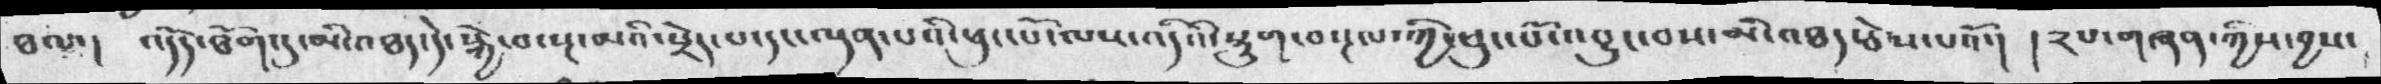ཐལ་། འདོད་ཐོག་དུ་མི་འཐད་དེ་སྐྱེ་བ་སྔ་མའི་སྲེད་པ་དང་ལྡན་པའི་ཕུང་པོ་ལས་འདིའི་སྡུག་བསྔལ་ཀྱི་ཕུང་པོ་འབྱུང་བས་མི་འཐད་ཅེས་པའོ་།  །༢པ་གཞཉ་ཀྱིས་བྱས་
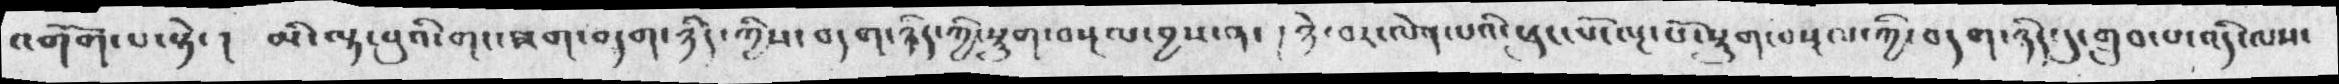འགོག་པ་སྟེ་།  མི་ལྟ་བུའི་གང་ཟག་བདག་ཉིད་ཀྱིས་བདག་ཉིད་ཀྱི་སྡུག་བསྔལ་བྱས་ན་།  ཉེ་བར་ལེན་པའི་ཕུང་པོ་སྡུག་བསྔལ་ཀྱི་བདག་ཉིད་དུ་གྲུབ་པ་འདི་ལས་
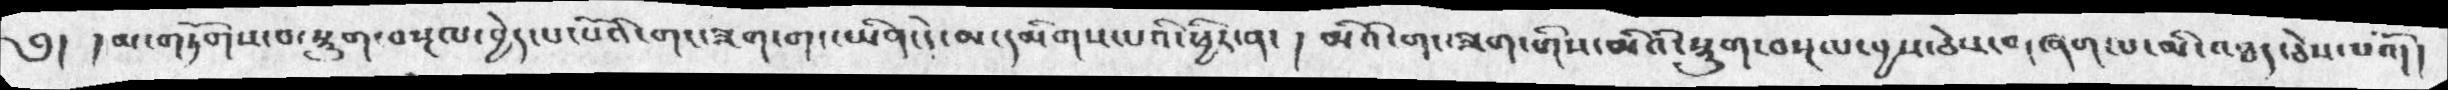༄།  །མ་གཏོགས་བ་སྡུག་བསྔལ་བྱེད་པ་པོའི་གང་ཟག་གང་ཡིན་དེ་མ་དམིགས་པའི་ཕྱིར་ན་ ། མིའི་གང་ཟག་གིས་མེའི་སྡུག་བསྔལ་བྱས་ཅེས་གཞག་པ་མི་འཐད་ཅེས་པའོ།།
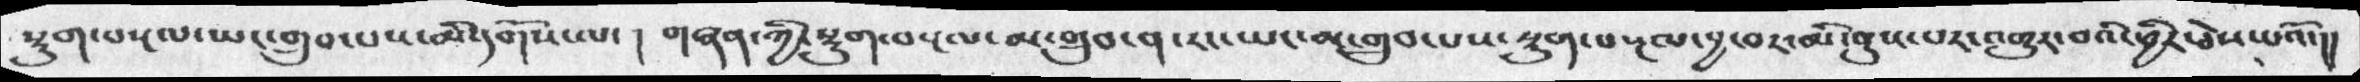སྡུག་བསྔལ་ཡང་གྲུབ་པས་མི་དགོས་ལ་ །  གཞན་ཀྱི་སྡུག་བསྔལ་མ་གྲུབ་ན་རང་ཡང་མ་གྲུབ་པས་སྡུག་བསྔལ་བྱ་བར་མི་ནུས་པར་འགྱུར་བའི་ཕྱིར་ཅེས་པའོ་།།
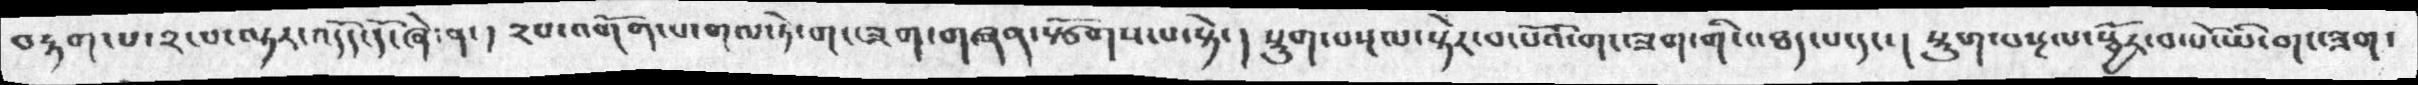བརྟག་པ་༢་པ་ལྟར་འདོད་དོ་ཞེ་ན་། ༢པ་འགོག་པ་གལ་ཏེ་གང་ཟག་གཞན་སྩོགས་པ་སྟེ་།  སྡུག་བསྔལ་སྟེར་བ་པོའི་གང་ཟག་གི་འཐད་པ་དང་། སྡུག་བསྔལ་སྦྱོར་བ་པོ་ཡི་གང་ཟག་
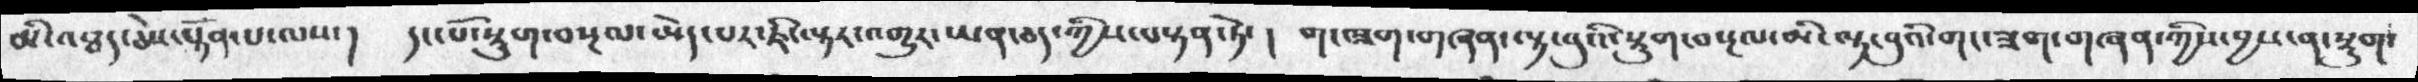མི་འཐད་ཅེས་སྟོནཔ་ལས་།  དང་པོ་སྡུག་བསྔལ་མེད་པར་ཇི་ལྟར་འགྱུར་ཡན་ཅད་ཀྱིས་བསྟན་ཏེ་།  གང་ཟག་གཞན་ལྟ་བུའི་སྡུག་བསྔལ་མི་ལྟ་བུའི་གང་ཟག་གཞན་ཀྱིས་བྱས་ན་སྡུག་
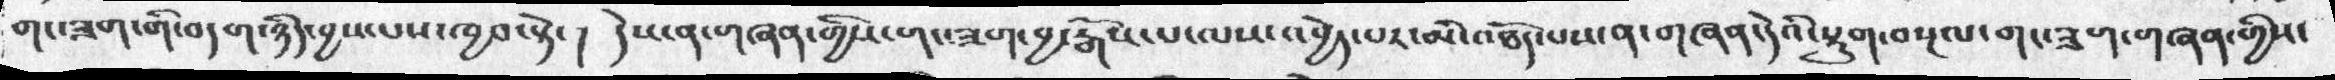གང་ཟག་གི་བདག་ཉིད་བྱས་པས་ཁྱབ་སྟེ་།  དེས་ན་གཞན་གྱིས་གང་ཟག་བྱ་རྒོས་པ་ལས་འབྱེད་པར་མི་འཐོད་པས་ན་གཞན་དེའི་སྡུག་བསྔལ་གང་ཟག་གཞན་གྱིས
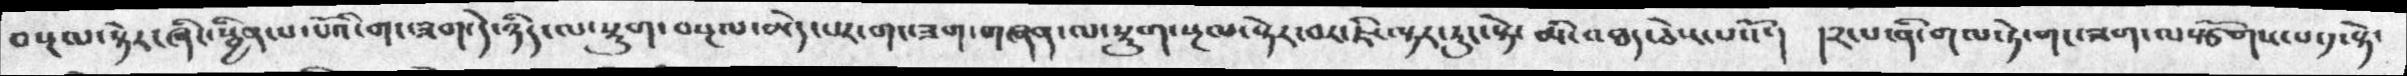བསྔལ་སྟེར་ཞིང་སྦྱིན་པ་པོའི་གང་ཟག་དེ་ཉིད་ལ་སྡུག་བསྔལ་མེད་པར་གང་ཟག་གཞན་ལ་སྡུག་བསྔལ་སྟེར་བར་ཇི་ལྟར་རུང་སྟེ་ མི་འཐད་ཅེས་པའོ་།  །༢་པ་ནི་གལ་ཏེ་གང་ཟག་ལསྩོགས་པ་༡་སྟེ་
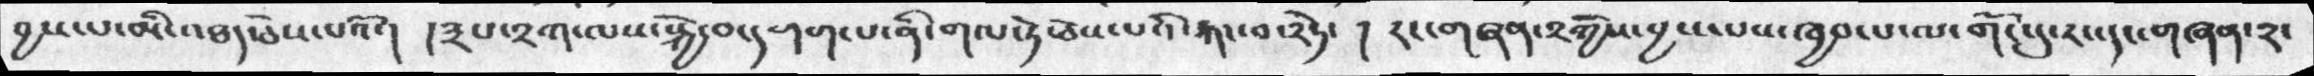བྱས་པ་མི་འཐད་ཅེས་པའོ་།  །༣པ་༢ག་ལས་སྐྱེ་བ་དགག་པ་ནི་གལ་ཏེ་ཅེས་པའི་རྐང་བ་༢ཏེ་   ། རང་གཞན་༢ཀྱིས་བྱས་པས་ཁྱབ་པ་ལ་གོང་དུ་རང་དང་གཞན་༢་
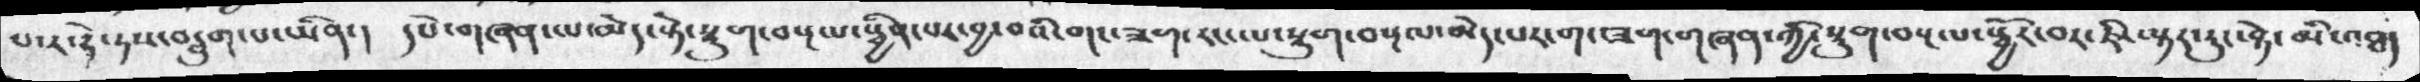པ་ར་བྷེ་ཏས་བརླུག་པ་ཡིན་།  དཔེ་གཞན་པ་མེད་སྟེ་སྡུག་བསྔལ་སྦྱིན་པར་བྱ་བའི་གང་ཟག་རང་ལ་སྡུག་བསྔལ་མེད་པར་གང་ཟག་གཞན་ཀྱི་སྡུག་བསྔལ་སྦྱོར་བར་ཇི་ལྟར་རུང་སྟེ་མི་འཐད
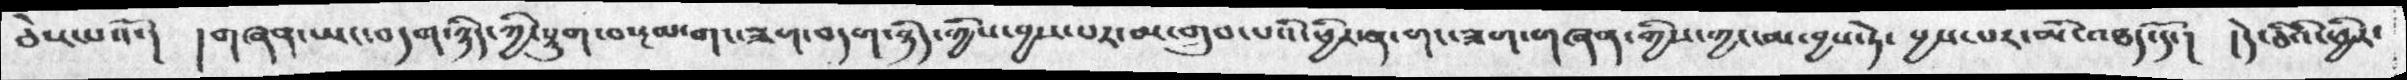ཅེས་པའོ་།  ། གཞན་ཡང་བདག་ཉིད་ཀྱི་སྡུག་བསྔལ་གང་ཟག་བདག་ཉིད་ཀྱིས་བྱས་པར་མ་གྲུབ་པའི་ཕྱིར་ན་གང་ཟག་གཞན་ཀྱིས་ཀྱང་མ་བྱས་ཏེ་  བྱས་པར་མི་འཐད་དོ་།  །དེ་ཅིའི་ཕྱིར་
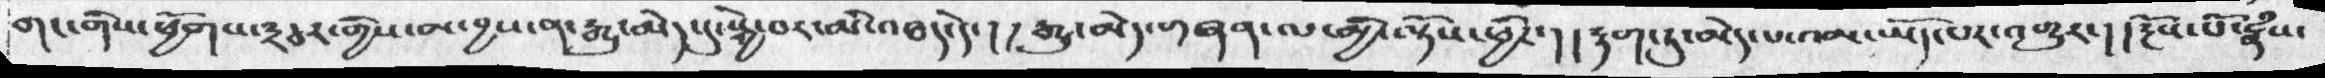གང་གིས་ཕྱོགས་༣ཅར་གྱིས་མ་བྱས་ན་རྒྱུ་མེད་དུ་སྐྱེ་བར་མི་འཐད་དེ་། ། རྒྱུ་མེད་གཞན་ལ་མྱི་ལྟོས་ཕྱིར་།། རྟག་ཏུ་མེད་པ་འམ་ཡོད་པར་འགྱུར་།། རྔོས་པོ་རྣཾས་
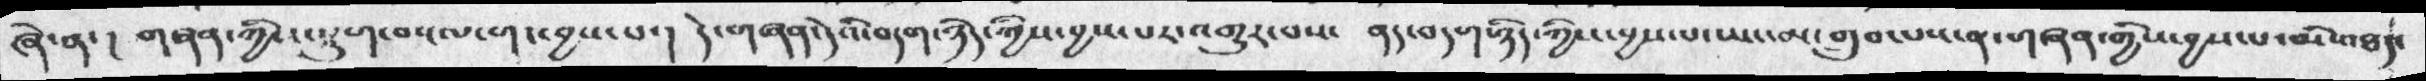ཞེ་ན་།  གཞན་ཀྱི་སྡུག་བསྔལ་གང་བྱས་པ་།  དེ་གཞན་དེའི་བདག་ཉིད་ཀྱིས་བྱས་པར་འགྱུར་བས་  ནད་བདག་ཉིད་ཀྱིས་བྱས་པ་ཡང་མ་གྲུབ་པས་ན་གཞན་གྱིས་བྱས་པ་མི་འཐད་
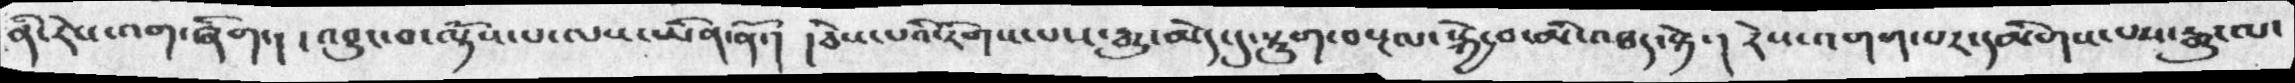ནི་རེས་འག་ཞིག་། ། འབྱུང་བ་ལྟོས་པ་ལས་ཡིན་ནོ་།  །ཅེས་པའི་རིགས་པས་རྒྱུ་མེད་དུ་སྡུག་བསྔལ་སྐྱེ་བ་མི་འཐད་སྟེ་།  རེས་འགག་པར་དམིགས་པས་རྒྱུ་ལ་
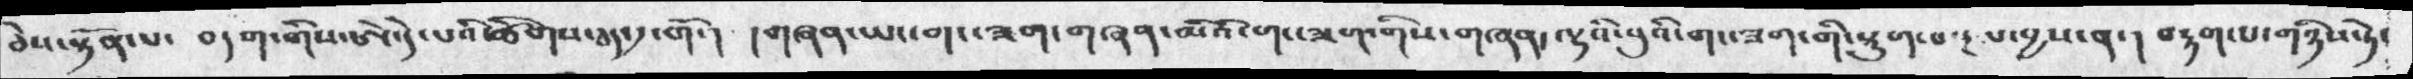ཅེས་སྟོན་པ་  བདག་གིས་ཨེ་དེ་པའི་ཚིགས་ཅད་དུ་གོ་།  །གཞན་ཡང་གང་ཟག་གཞན་མིའི་གང་ཟག་གིས་གཞན་ལྷའི་བུའི་གང་ཟག་གི་སྡུག་བསྔལ་བྱས་ན་།  བརྟག་པ་གཉིས་ཏེ་
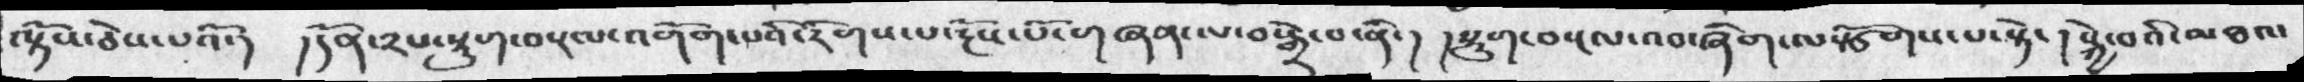ལྟོས་ཅེས་པའོ་།  །དོན༢ས་སྡུག་བསྔལ་འགོག་པའི་རིགས་པ་རྔོས་པོ་གཞན་པ་བསྒྲེ་པ་ནི་།  །སྡུག་བསྔལ་འབ་ཞིག་ལསྩོགས་པ་སྟེ་ ། སྐྱེ་བའི་མཐའ་
